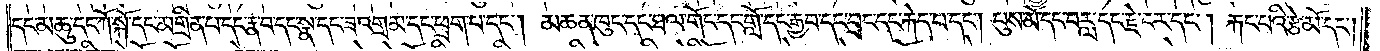དང་མཆུ་དང་ཀོ་སྐོ་དང་མགྲིན་པ་དང་རྣ་བ་དང་སྣ་དང་ཟ་འགྲམ་དང་ཕྲག་པ་དང༌། མཆན་ཁུང་དང་ཐལ་གོང་དང་གློ་དང་རྒྱབ་དང་བྲང་དང་རྐེད་པ་དང༌། པུས་མོ་དང་བརླ་དང་རྗེ་ངར་དང༌། རྐང་པའི་རྩེ་མོ་དང༌།
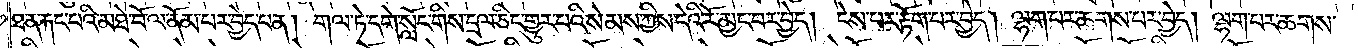ཐ་ན་རྐང་པའི་མཐེ་བོ་ལ་ནོམ་པར་བྱེད་པ་ན། གལ་ཏེ་དགེ་སློང་གིས་དྲལ་ཅིང་གྱུར་པའི་སེམས་ཀྱིས་དེའི་རོ་མྱང་བར་བྱེད། ངེས་པར་རྟོག་པར་བྱེད། ལྷག་པར་ཆགས་པར་བྱེད། ལྷག་པར་ཆགས་
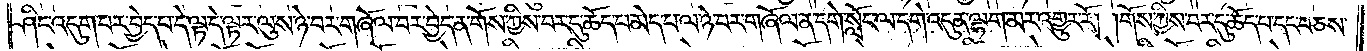ཤིང་འདུག་པར་བྱེད་པ་དེ་ལྟ་དེ་ལྟར་ལུས་ཉེ་བར་གཞོལ་བར་བྱེད་ན་གོས་ཀྱིས་བར་དུ་ཆོད་པ་མེད་པ་ལ་ཉེ་བར་གཞོལ་ན་དགེ་སློང་ལ་དགེ་འདུན་ལྷག་མར་འགྱུར་རོ། །གོས་ཀྱིས་བར་དུ་ཆོད་པ་དང་བཅས་
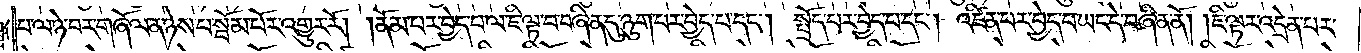པ་ལ་ཉེ་བར་གཞོལ་ན་ཉེས་པ་སྦོམ་པོར་འགྱུར་རོ། །ནོམ་པར་བྱེད་པ་ལ་ཇི་ལྟ་བ་བཞིན་དུ་ཉུག་པར་བྱེད་པ་དང༌། སྤྲོད་པར་བྱེད་པ་དང༌། འཛིན་པར་བྱེད་པ་ཡང་དེ་བཞིན་ནོ། །ཇི་ལྟར་འདྲེན་པར་
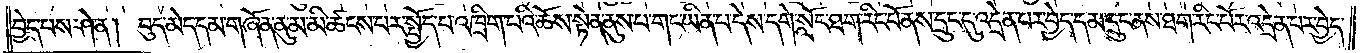བྱེད་པས་ཤེ་ན། བུད་མེད་དམ་གཞོན་ནུ་མ་མི་ཚངས་པར་སྤྱོད་པ་འཁྲིག་པའི་ཆོས་སྟེན་ནུས་པ་གང་ཡིན་པ་དེས་དགེ་སློང་ཐག་རིང་པོ་ནས་དྲུང་དུ་འདྲེན་པར་བྱེད་དམ་དྲུང་ནས་ཐག་རིང་པོར་འདྲེན་པར་བྱེད་
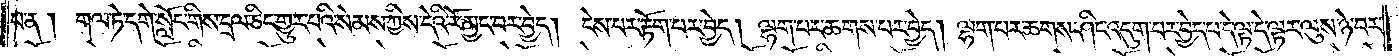པ་ན། གལ་ཏེ་དགེ་སློང་གིས་དྲལ་ཅིང་གྱུར་པའི་སེམས་ཀྱིས་དེའི་རོ་མྱང་བར་བྱེད། ངེས་པར་རྟོག་པར་བྱེད། ལྷག་པར་ཆགས་པར་བྱེད། ལྷག་པར་ཆགས་ཤིང་འདུག་པར་བྱེད་པ་དེ་ལྟ་དེ་ལྟར་ལུས་ཉེ་བར་
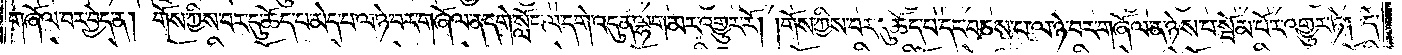གཞོལ་བར་བྱེད་ན། གོས་ཀྱིས་བར་དུ་ཆོད་པ་མེད་པ་ལ་ཉེ་བར་གཞོལ་ན་དགེ་སློང་ལ་དགེ་འདུན་ལྷག་མར་འགྱུར་རོ། །གོས་ཀྱིས་བར་དུ་ཆོད་པ་དང་བཅས་པ་ལ་ཉེ་བར་གཞོལ་ན་ཉེས་པ་སྦོམ་པོར་འགྱུར་ཏེ། དེ་
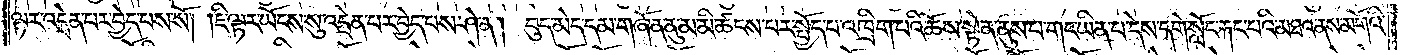ལྟར་འདྲེན་པར་བྱེད་པས་སོ། །ཇི་ལྟར་ཡོངས་སུ་འདྲེན་པར་བྱེད་པས་ཤེ་ན། བུད་མེད་དམ་གཞོན་ནུ་མ་མི་ཚངས་པར་སྤྱོད་པ་འཁྲིག་པའི་ཆོས་སྟོན་ནུས་པ་གང་ཡིན་པ་དེས་དགེ་སློང་རྐང་པའི་མཐའ་ནས་མགོའི་
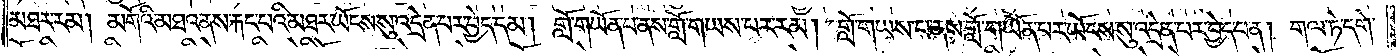མཐར་རམ། མགོའི་མཐའ་ནས་རྐང་པའི་མཐར་ཡོངས་སུ་འདྲེན་པར་བྱེད་དམ། གློ་གཡོན་པ་ནས་གློ་གཡས་པར་རམ། གློ་གཡས་པ་ནས་གློ་གཡོན་པར་ཡོངས་སུ་འདྲེན་པར་བྱེད་པ་ན། གལ་ཏེ་དགེ་
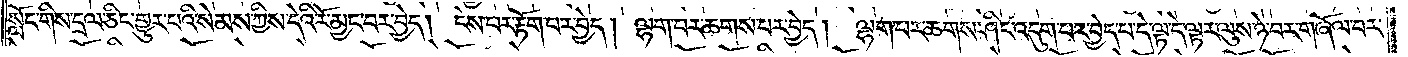སློང་གིས་དྲལ་ཅིང་གྱུར་པའི་སེམས་ཀྱིས་དེའི་རོ་མྱང་བར་བྱེད། ངེས་པར་རྟོག་པར་བྱེད། ལྷག་པར་ཆགས་པར་བྱེད། ལྷག་པར་ཆགས་ཤིང་འདུག་པར་བྱེད་པ་དེ་ལྟ་དེ་ལྟར་ལུས་ཉེ་བར་གཞོལ་བར་
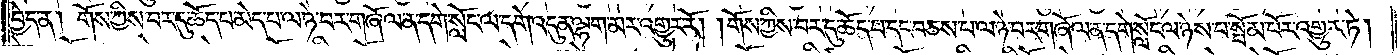བྱེད་ན། གོས་ཀྱིས་བར་དུ་ཆོད་པ་མེད་པ་ལ་ཉེ་བར་གཞོལ་ན་དགེ་སློང་ལ་དགེ་འདུན་ལྷག་མར་འགྱུར་རོ། །གོས་ཀྱིས་བར་དུ་ཆོད་པ་དང་བཅས་པ་ལ་ཉེ་བར་གཞོལ་ན་དགེ་སློང་ལ་ཉེས་པ་སྦོམ་པོར་འགྱུར་ཏེ།
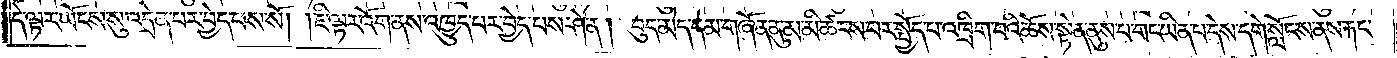དེ་ལྟར་ཡོངས་སུ་འདྲེན་པར་བྱེད་པས་སོ། །ཇི་ལྟར་འོག་ནས་འཁྱུད་པར་བྱེད་པས་ཤེ་ན། བུད་མེད་དམ་གཞོན་ནུ་མ་མི་ཚངས་པར་སྤྱོད་པ་འཁྲིག་པའི་ཆོས་སྟོན་ནུས་པ་གང་ཡིན་པ་དེས་དགེ་སློང་ནས་རྐང་
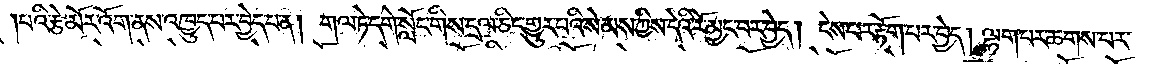།པའི་རྩེ་མོར་འོག་ནས་འཁྱུད་པར་བྱེད་པ་ན། གལ་ཏེ་དགེ་སློང་གིས་དྲལ་ཅིང་གྱུར་པའི་སེམས་ཀྱིས་དེའི་རོ་མྱང་བར་བྱེད། ངེས་པར་རྟོག་པར་བྱེད། ལྷག་པར་ཆགས་པར་
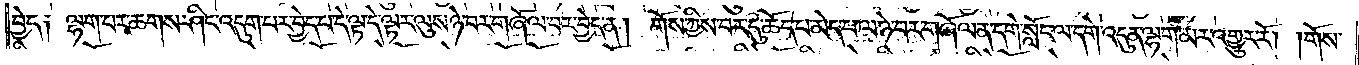བྱེད༑ ལྷག་པར་ཆགས་ཤིང་འདུག་པར་བྱེད་པ་དེ་ལྟ་དེ་ལྟར་ལུས་ཉེ་བར་གཞོལ་བར་བྱེད་ན། གོས་ཀྱིས་བར་དུ་ཆོད་པ་མེད་པ་ལ་ཉེ་བར་གཞོལ་ན་དགེ་སློང་ལ་དགེ་འདུན་ལྷག་མར་འགྱུར་རོ། །གོས་
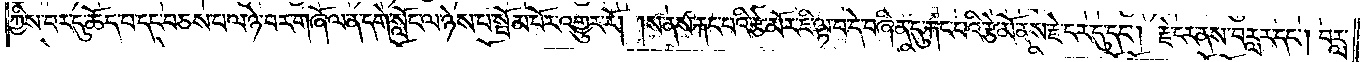ཀྱིས་བར་དུ་ཆོད་པ་དང་བཅས་པ་ལ་ཉེ་བར་གཞོལ་ན་དགེ་སློང་ལ་ཉེས་པ་སྦོམ་པོར་འགྱུར་རོ། །ས་ནས་རྐང་པའི་རྩེ་མོར་ཇི་ལྟ་བ་དེ་བཞིན་དུ་རྐང་པའི་རྩེ་མོ་ནས་རྗེ་ངར་དུ་དང༌། རྗེ་ངར་ནས་བརླར་དང༌། བརླ་
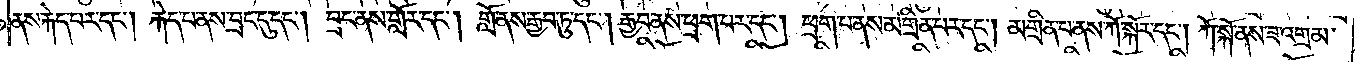ནས་རྐེད་པར་དང༌། རྐེད་པ་ནས་བྲང་དུ་དང༌། བྲང་ནས་གློར་དང༌། གློ་ནས་རྒྱབ་ཏུ་དང༌། རྒྱབ་ནས་ཕྲག་པ་དང༌། ཕྲག་པ་ནས་མགྲིན་པར་དང༌། མགྲིན་པ་ནས་ཀོ་སྐོར་དང༌། ཀོ་སྐོ་ནས་ཟ་འགྲམ་
